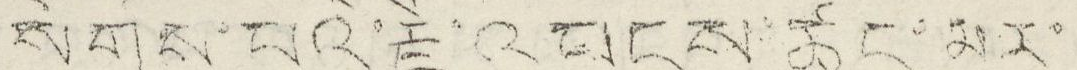སོགས་པའི་རྗེ་འབངས་ཚང་མར་
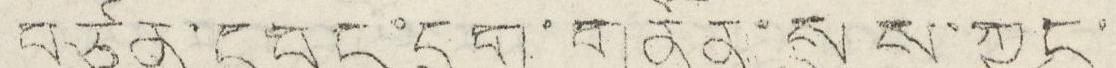བཙན་དབང་དྲག་གནོན་སུས་ཀྱང་
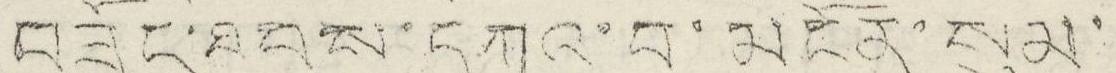བཟོད་ཐབས་དཀའ་བ་མངོན་སུམ་
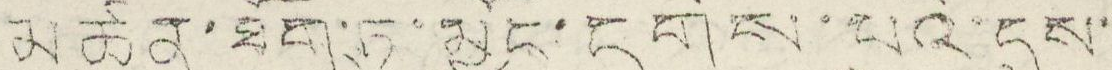མཚན་ཐོག་ཏུ་མྱོང་དགོས་པའི་དུས་
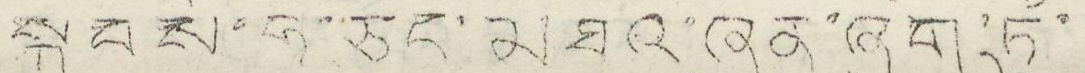སྐབས་ཧ་ཅང་མཐའ་ཞན་ཞིག་ཏུ་
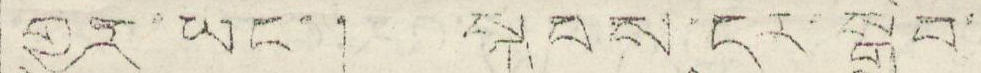གྱུར་ཡང་། སྐབས་དེར་སྒྲིབ་
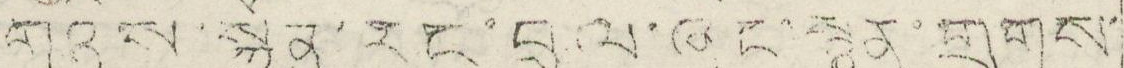གཉིས་སྐྱོན་རང་བྲལ་ཞིང་སྙན་གྲགས་
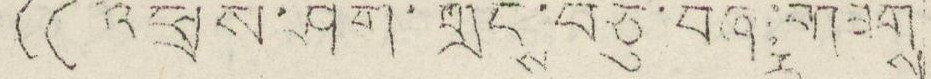(( འཕྲོས་ཤོག་གྲངྶ་བཅུ་བཞིར་གཟིགས
